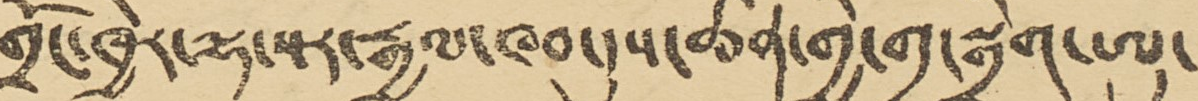གྲོང་ཁྱེར་ལྷ་སར་རྒྱལ་ཁབ་དུས་ཆེན་གྱི་གྲྭ་སྒྲིག་ཨུ་
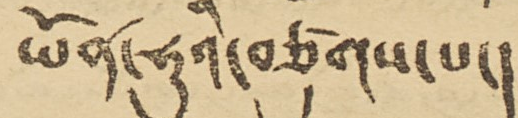ཡོན་ཧུའི་བཙུགས་པ་།
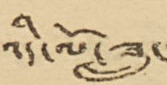འདི་ལོ་ཟླ་
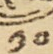༡༠
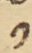༡
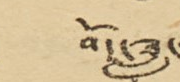བོད་ཟླ་
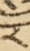༨
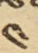༤
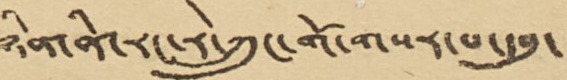ཉིན་ནི་རང་རེ་ཀྲུང་གོ་གསར་པ་དབུ་
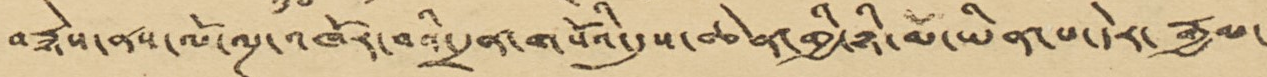བརྙེས་ནས་ལོ་ལྔ་འཁོར་བའི་དྲན་གསོའི་དུས་ཆེན་གྱི་ཉི་མོ་ཡིན་པ་དེར་རྒྱལ་
